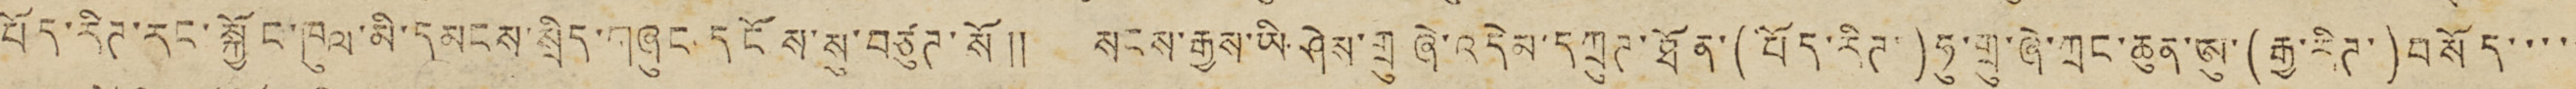བོད་རིཊ་རང་སྐྱོང་ཁུལ་མི་དམངས་སྲིད་གཞུང་དངོས་སུ་བཙུཊ་སོ༎ སངས་རྒྱས་ཡི་ཤེས་གྲུ ཞེ་འདེམ་དཀྲུཊ་ཐོན་(བོད་རིཊ་)ཧུ་གྲུ་ཞེ་ཀྲང་ཆུན་ཨུ་(རྒྱ་རིཊ་)བསོད་་་་་
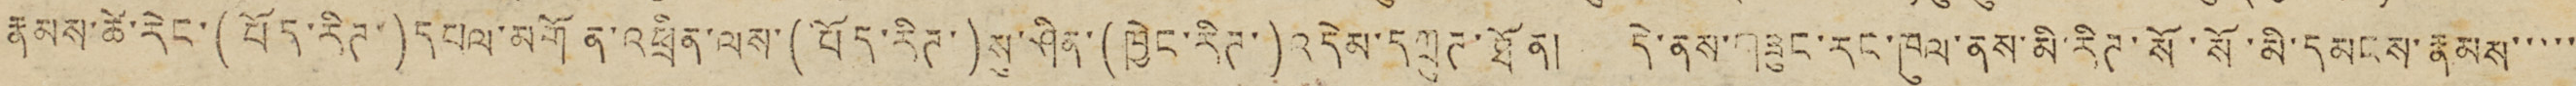རྣམས་ཚེ་རེང་(བོད་རིཊ་)དཔལ་མགོན་འཕྲིན་ལས་(བོད་རིཊ་)སུ་ཤིན་(ཁྱེང་རིཊ་)འདེམ་དཀྲུཊ་ཐོན། དེ་ནས་གཟུང་རང་ཁུལ་ནས་མི་རིཊ་སོ་སོ་དམངས་རྣམས་་་་་
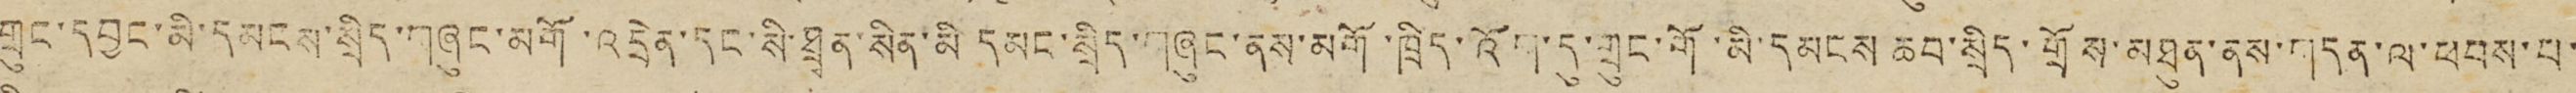གྲུང་དབྱང་མི་དམངས་སྲིད་གཞུང་མགོ་འདྲེན་དང་སི་ཐྲྭན་སིན་མི དམང་སྲིད་གཞུང་ནས་མགོ་ཁྲིད་འོག་དུ་གྲུང་གོ་མི་དམངས ཆབ་སྲིད་གྲོས་མཐུན་ནས་གདན་ལ་ཕབས་པ་
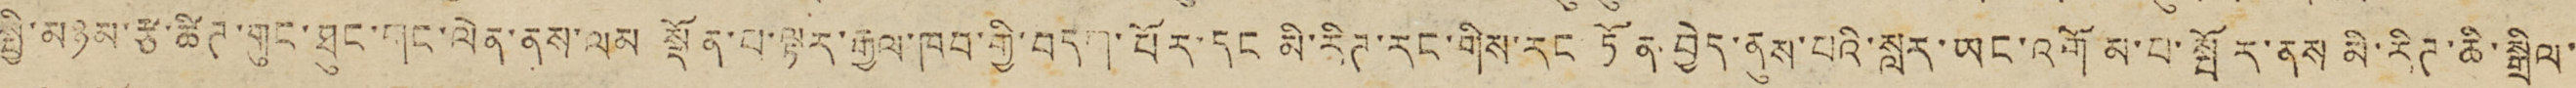སྤྱི་མཉམ་རྩ་ཚིཊ་གུང་ཐུང་གང་ལེན་ནས་ལམ སྡོན་པ་ལྟར་རྒྱལ་ཁབ་གྱི་བདག་པོར་དང མི་རིཊ་རང་གིས་རང ཏོན་བྱེད་ནུས་པའི་སླར་ཡང་འགོམ་པ་སྤོར་ནས མི་རིཊ་ཆི་སྒྲིལ་
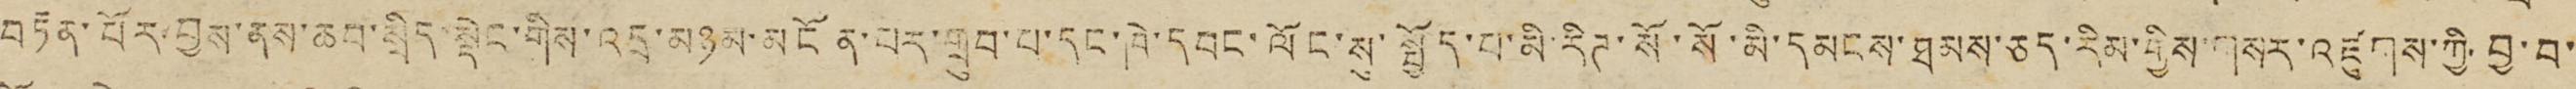བརྟན་པོར་བྱས་ནས་ཆབ་སྲིད་སྡེང་གིས་འདྲ་མཉམ་མངོན་པར་གྲུབ་པ་དང་ཁེ་དབང་ལོང་སུ་སྤྱོད་པ་མི་རིཊ་སོ་སོ་མི་དམངས་ཐམས་ཅད་རིམ་གྱིས་གསར་འཛུགས་ཀྱི་བྱ་བ་
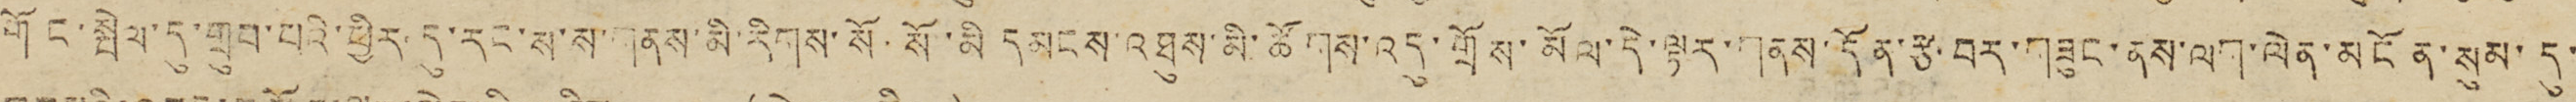གོང་སྤེལ་དུ་གྲུབ་པའི་ཕྱིར་དུ་རང་ས་ས་གནས་མི་རིགས་སོ་སོ་མི དམངས་འཐུས་མི་ཚོགས་འདུ་གྲོས་མོལ་དེ་ལྟར་གནས་དོན་རྩ་བར་གཟུང་ནས་ལག་ལེན་མངོན་སུམ་དུ་
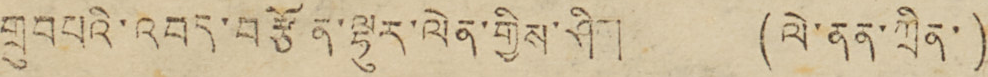གྲུབཔའི་འབད་བརྩོན་ལྷར་ལེན་གྱིས་ཤིག (ལེ་ནན་ཀྲིན་)
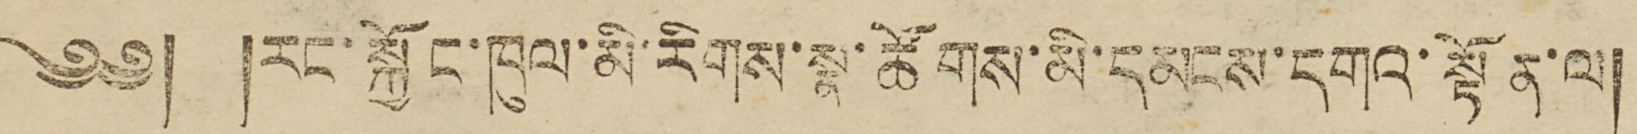༄༅། །རང་སྐྱོང་ཁུལ་མི་རིགས་སྣ་ཚོགས་མི་དམངས་དགའ་སྟོན་ལ།
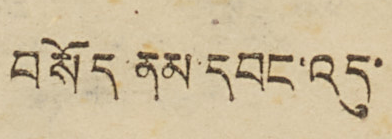བསོད་ནམ་དབང་འདུ་
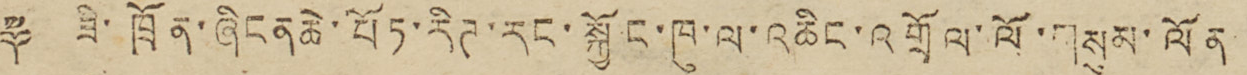༈ ཟི་ཁྲོན་ཞིངནཆེ་པོ་རིཊ་རང་སྐྱོང་ཁུ་ལ་འཆིང་འགྲོལ་ལོ་གསུམ་ལོན
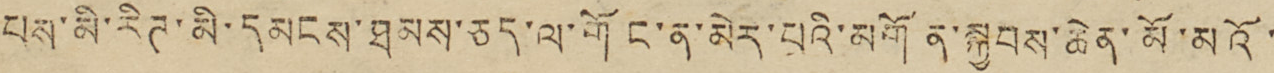པས་མི་རིཊ་མི་དམངས་ཐམས་ཅད་ལ་གོང་ན་མེར་པའི་མགོན་སྐྱབས་ཆེན་མོ་མའོ་
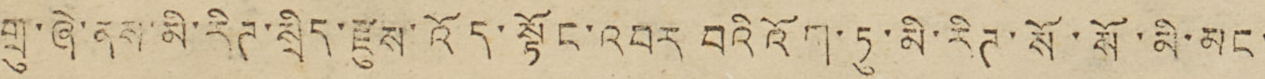གྲུ་ཞེ་ནས་མི་རིཊ་སྲིད་རྫུས་འོད་སྟོང་འབར བའི འོག་ཏུ་མི་རིཊ་སོ་སོ་མི་མང་
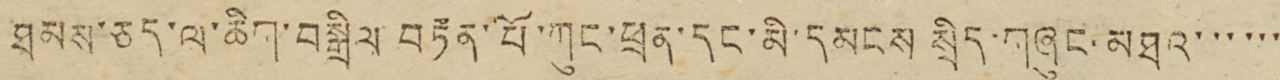ཐམས་ཅད་ལ་ཆིག་བསྒྲིལ་བརྟན་པོ་ཀུང་ཕྲན་དང་མི་དམངས སྲིད་གཞུང་མཐའ་་་་་་
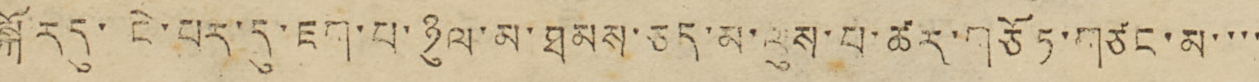སྐོརདུ་ངེ་པར་དུ་ཇག་པ་ཉུལ་མ་ཐམས་ཅད་མ་ལུས་པ་ཚར་གཅོཏ་གཙང་མ་་་་
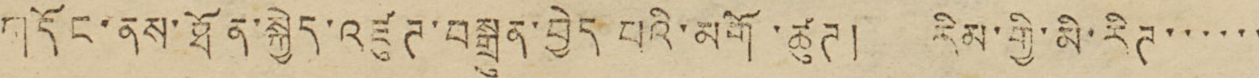གདོང་ནས་ཐོན་སྐྱེད་འཛུཊ་བསྒྲུན་བྱེད པའི་མགོ་ཚུཊ། རིམ་གྱི་མི་རིཊ་་་་་་
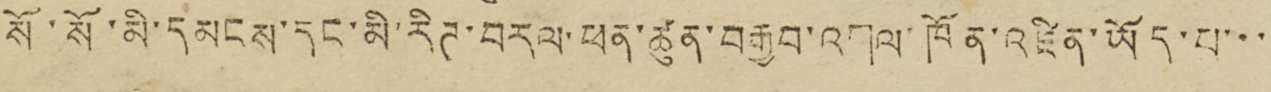སོ་སོ་མི་དམངས་དང་མི་རིཊ་བརལ་ཕན་ཚུན་བརྒྱབ་འགལ་ཁོན་འཛིན་ཡོད་པ་་་
